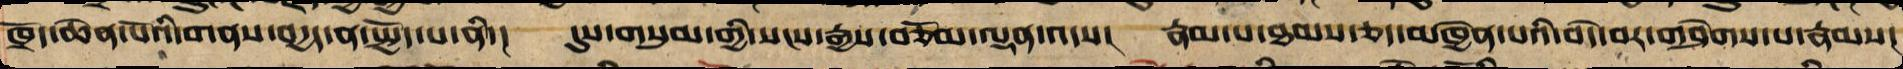ཁྲོད་ཆེན་པོའི་གནས་བདྱད་ན་སྤྱོད་པ་ནི་། དུས་གསུམ་གྱི་སངས་རྒྱས་བཅོམ་ལྡན་འདས། རྣམ་པ་ཐམས་ཅད་མཁྱེན་པའི་བདེ་བར་གཤེགས་པ་རྣམས།
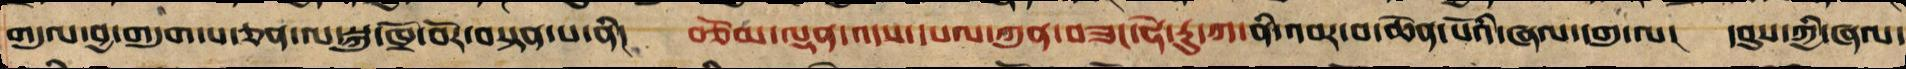གདུལ་བྱ་གདུག་པ་ཅན་ལ་སྐུ་ཁྲོ་བོར་བསྟན་པ་ནི། བཅོམ་ལྡན་འདས་དཔལ་ཀུན་བཟང་ཧེ་རུ་ཀ་ནི་འབར་བ་ཆེན་པོའི་ཞལ་དགུ་ལ། དབུས་ཀྱི་ཞལ་
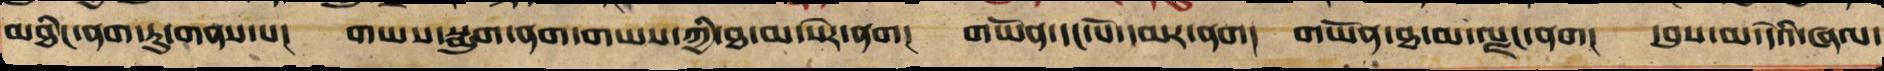མཐིང་ནག་ཏུ་གནས་པ། གཡས་སྨུག་ནག་གཡས་ཀྱི་ཐ་མ་སེར་ནག། གཡོན་དང་པོ་དམར་ནག། གཡོན་ཐ་མ་ལྗང་ནག། དབུས་མ་དེའི་ཞལ་
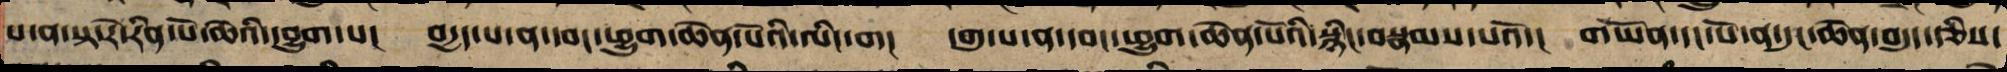པ་ན་སྟྭ་རེ་རིན་པོ་ཆེའི་དབྱུག་པ། བདྱད་པ་ན་དབང་ཕྱུག་ཆེན་པོའི་ལིང་ག། དགུ་པ་ན་དབང་ཕྱུག་ཆེན་པོའི་སྙིང་བསྣམས་པའོ་། གཡོན་དང་པོ་ན་དུང་ཆེན་བདུད་རྩིས་
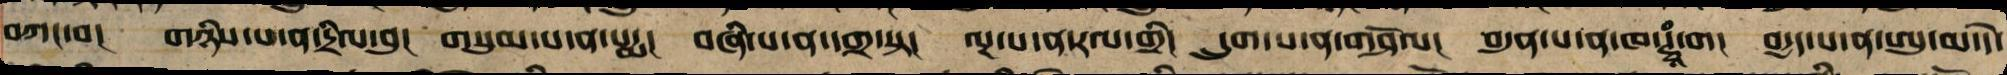བཀང་བ། གཉིས་པ་ན་དྲིལ་བུ། གསུམ་པ་ན་པདྨ། བཞི་པ་ན་དགྲ་སྟ། ལྔ་པ་ན་རལ་གྲི། དྲུག་པ་ན་གཤོལ། བདུན་པ་ན་ཁ་ཊྭཱཾ་ག། བདྱད་པ་ན་ཨུ་མ་དེ་
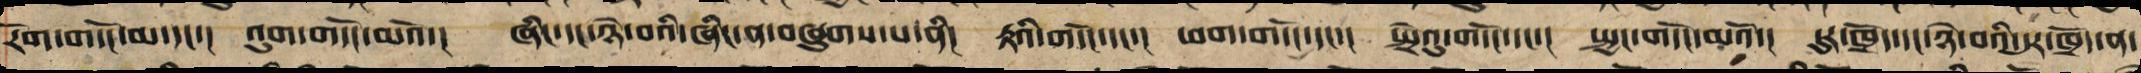རོག་གདོང་མ་དང་། འུག་གདོང་མའོ་། ཞིང་དང་ཉེ་བའི་ཞིང་ན་བཞུགས་པ་ནི། རྟའི་གདོང་དང་། ཕག་གདོང་དང་། སྤྲེའུ་གདོང་དང་། སྤྱང་གདོང་མའོ་། དུར་ཁྲོད་དང་ཉེ་བའི་དུར་ཁྲོད་ན་
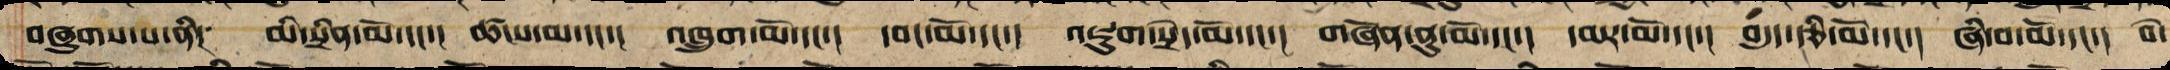བཞུགས་པ་ནི། མི་སྲིན་མོ་དང་། ཚངས་མ་དང་། འཁྲུག་མོ་དང་། དབང་མོ་དང་། འཇུག་སྲེད་མོ་དང་། གཞོན་ནུ་མ་དང་། དམར་མོ་དང་། བདུད་རྩི་མོ་དང་། ཞི་བ་མོ་དང་། བེ་
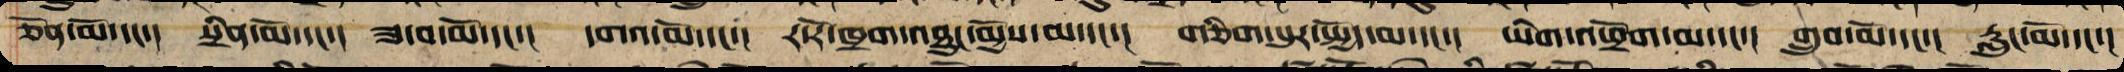ཅོན་མོ་དང་། སྲིན་མོ་དང་། ཟབ་མོ་དང་། དགའ་མོ་དང་། ར་རོ་ཁྲག་འཐུང་མྱོས་མ་དང་། གཅིག་པུར་སྤྱོད་མ་དང་། ཡིད་འཕྲོག་མ་དང་། གྲུབ་མོ་དང་། རླུང་མོ་དང་།
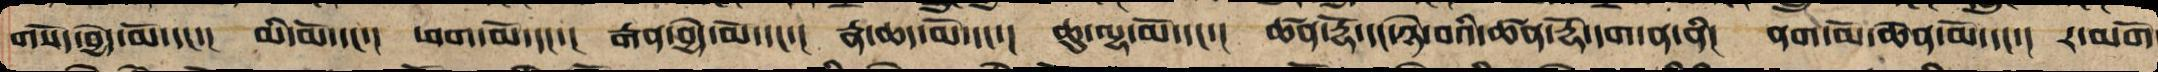གསོད་བྱེད་མོ་དང་། མི་མོ་དང་། ཕག་མོ་དང་། རྒན་བྱེད་མོ་དང་། སྣ་ཆེན་མོ་དང་། ཆུ་ལྷ་མོ་དང་། ཚན་དྷོ་དང་། ཉེ་བའི་ཚན་དྷོ་དག་ན་ནི། ནག་མོ་ཆེན་མོ་དང་། ར་མགོ
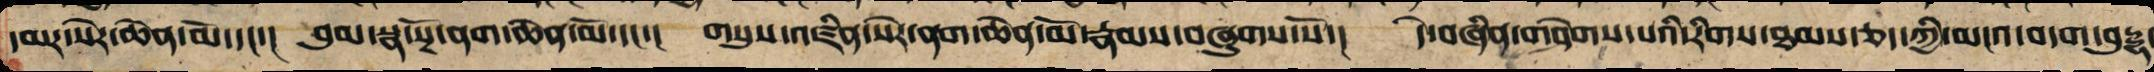དམར་སེར་ཆེན་མོ་དང་། བུམ་རྣ་སྔོ་ནག་ཆེན་མོ་དང་། གསུས་འཛིན་སེར་ནག་ཆེན་མོ་རྣམས་བཞུགས་སོ་། དེ་བཞིན་གཤེགས་པའི་རིགས་ཐམས་ཅད་ཀྱི་མངའ་བདག་བུདྡྷ་
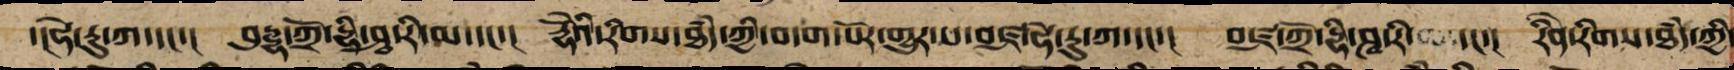་།ཧེ་རུ་ཀ་དང་།   བུདྡྷ་ཀྲོ་དྷཱི་ཤྭ་རི་མ་དང་།  རྡོེའི་རིགས་ཐཾད་ཀྱི་བདག་པོར་གྱུར་པ་བཛྲ་ཧེ་རུ་ཀ་དང་། བཛྲ་ཀྲོ་དྷཱི་ཤྭ་རི་མ་དང་། རིེན་རིགས་ཐཾད་ཀྱི
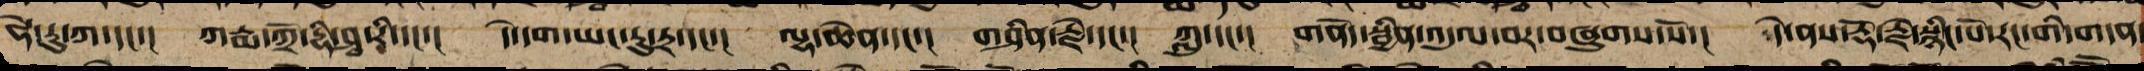ཧེ་རུ་ཀ་དང་། ཀརྨ་ཀྲོ་དྷཱི་ཤྭ་རཱི་དང་། དེ་དག་ཀྱང་རུ་ཏྲ་དང་། ལྷ་ཆེན་དང་། གཤིན་རྗེ་དང་། ཀླུ་དང་། གནོད་སྦྱིན་འདུལ་བར་བཞུགས་སོ་།  དེ་ནས་རྡོ་རྗེ་སྙིང་པོ་རང་གི་གདན
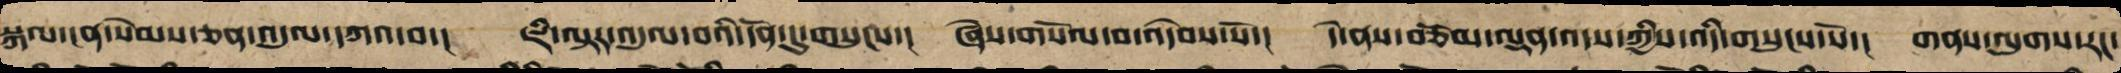སྐལ་ངན་སེམས་ཅན་གདུལ་དཀའ་བ་། ཇི་ལྟར་འདུལ་བའི་དོན་དུ་གསུངས་། ཞེས་གསོལ་བ་འདེབས་སོ་། དེ་ནས་བཅོམ་ལྡན་འདས་ཀྱིས་འདི་སྐད་གསུངས་སོ་། གནས་ལུགས་རང་
